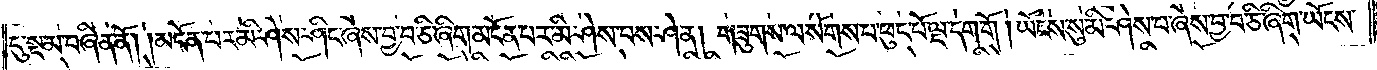དུ་སྔ་མ་བཞིན་ནོ། །མངོན་པར་མི་ཤེས་ཤིང་ཞེས་བྱ་བ་ཅི་ཞིག་མངོན་པར་མི་ཤེས་པས་ཤེ་ན། གཟུགས་ལ་སོགས་པ་ཕུང་པོ་ལྔ་དག་གོ །ཡོངས་སུ་མི་ཤེས་པ་ཞེས་བྱ་བ་ཅི་ཞིག་ཡོངས་
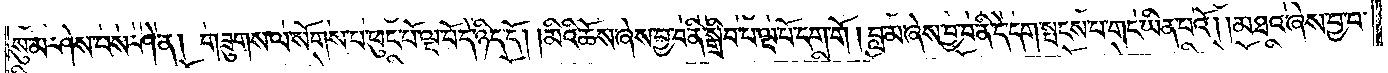སུ་མ་ཤེས་པས་ཤེ་ན། གཟུགས་ལ་སོགས་པ་ཕུང་པོ་ལྔ་པོ་དེ་ཉིད་དོ། །མིའི་ཆོས་ཞེས་བྱ་བ་ནི་སྒྲིབ་པ་ལྔ་པོ་དག་གོ །བླ་མ་ཞེས་བྱ་བ་ནི་དེ་དག་སྤངས་པ་གང་ཡིན་པའོ། །མཐའ་ཞེས་བྱ་བ་
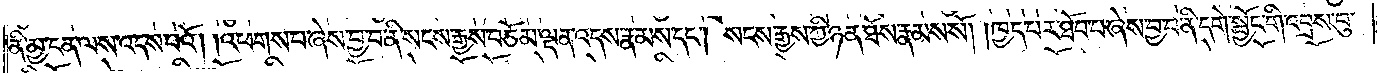ནི་མྱ་ངན་ལས་འདས་པའོ། །འཕགས་པ་ཞེས་བྱ་བ་ནི་སངས་རྒྱས་བཅོམ་ལྡན་འདས་རྣམས་དང༌། སངས་རྒྱས་ཀྱི་ཉན་ཐོས་རྣམས་སོ། །ཁྱད་པར་ཐོབ་པ་ཞེས་བྱ་བ་ནི་དགེ་སྦྱོང་གི་འབྲས་བུ་
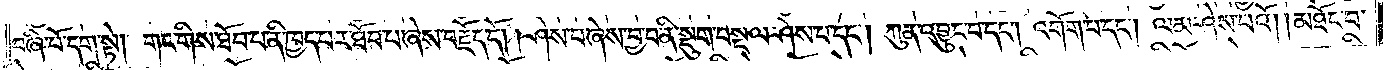བཞི་པོ་དག་སྟེ། གང་གིས་ཐོབ་པ་ནི་ཁྱད་པར་ཐོབ་པ་ཞེས་བརྗོད་དོ། །ཤེས་པ་ཞེས་བྱ་བ་ནི་སྡུག་བསྔལ་ཤེས་པ་དང༌། ཀུན་འབྱུང་བ་དང༌། འགོག་པ་དང༌། ལམ་ཤེས་པའོ། །མཐོང་བ་
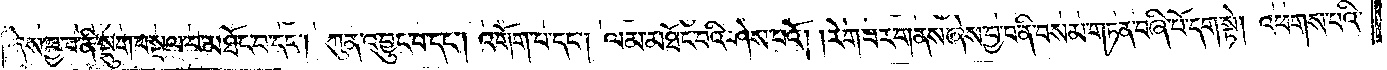ཞེས་བྱ་བ་ནི་སྡུག་བསྔལ་བ་མཐོང་བ་དང༌། ཀུན་འབྱུང་བ་དང༌། འགོག་པ་དང༌། ལམ་མཐོང་བའི་ཤེས་པའོ། །རེག་པར་གནས་ཞེས་བྱ་བ་ནི་བསམ་གཏན་བཞི་པོ་དག་སྟེ། འཕགས་པའི་
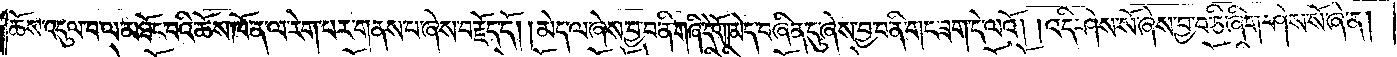ཆོས་འདུལ་བ་ལ་མཐོང་བའི་ཆོས་ཁོ་ན་ལ་རེག་པར་གནས་པ་ཞེས་བརྗོད་དོ། །མེད་ལ་ཞེས་བྱ་བ་ནི་གཞི་དེའོ། །མེད་བཞིན་དུ་ཞེས་བྱ་བ་ནི་གང་ཟག་དེ་ལའོ། །འདི་ཤེས་སོ་ཞེས་བྱ་བ་ཅི་ཞིག་ཤེས་སོ་ཞེ་ན།
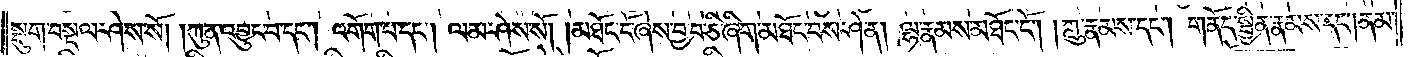སྡུག་བསྔལ་ཤེས་སོ། །ཀུན་འབྱུང་བ་དང༌། འགོག་པ་དང༌། ལམ་ཤེས་སོ། །མཐོང་ངོ་ཞེས་བྱ་བ་ཅི་ཞིག་མཐོང་བས་ཤེ་ན། ལྷ་རྣམས་མཐོང་ངོ༌། །ཀླུ་རྣམས་དང༌། གནོད་སྦྱིན་རྣམས་དང༌། ནམ་
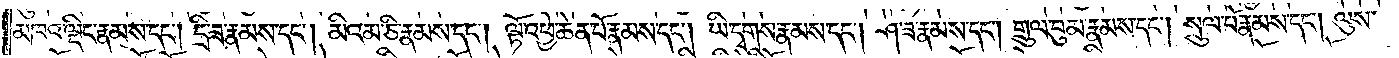མཁའ་ལྡིང་རྣམས་དང༌། དྲི་ཟ་རྣམས་དང༌། མིའམ་ཅི་རྣམས་དང༌། ལྟོ་འཕྱེ་ཆེན་པོ་རྣམས་དང༌། ཡི་དྭགས་རྣམས་དང༌། ཤ་ཟ་རྣམས་དང༌། གྲུལ་བུམ་རྣམས་དང༌། སྲུལ་པོ་རྣམས་དང༌། ལུས་
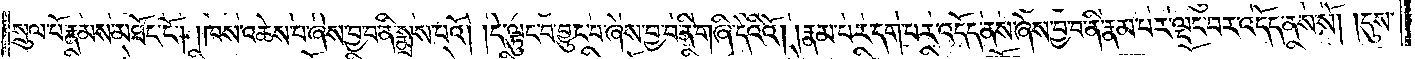སྲུལ་པོ་རྣམས་མཐོང་ངོ༌། །ཁས་འཆེས་པ་ཞེས་བྱ་བ་ནི་སྨྲས་པའོ། །དེ་ལྟུང་བ་བྱུང་བ་ཞེས་བྱ་བ་ནི་གཞི་དེའི་འོ། །རྣམ་པར་དག་པར་འདོད་ནས་ཞེས་བྱ་བ་ནི་རྣམ་པར་ལྡང་བར་འདོད་ནས་སོ། །དུས་
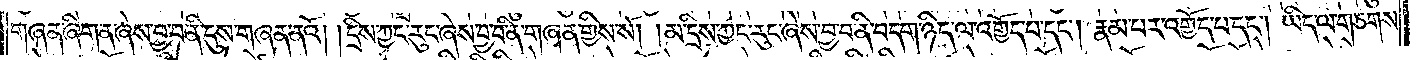གཞན་ཞིག་ན་ཞེས་བྱ་བ་ནི་དུས་གཞན་ནའོ། །དྲིས་ཀྱང་རུང་ཞེས་བྱ་བ་ནི་གཞན་གྱིས་སོ། །མ་དྲིས་ཀྱང་རུང་ཞེས་བྱ་བ་ནི་བདག་ཉིད་ལ་འགྱོད་པ་དང༌། རྣམ་པར་འགྱོད་པ་དང༌། ཡིད་ལ་གཅགས་
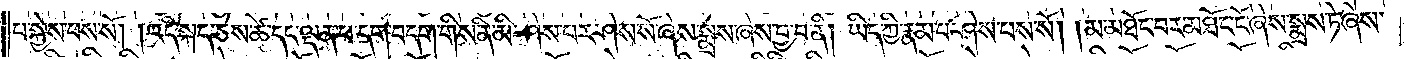པ་སྐྱེས་པས་སོ། །འདི་སྐད་ཅེས་ཚེ་དང་ལྡན་པ་དག་བདག་གིས་ནི་མི་ཤེས་པར་ཤེས་སོ་ཞེས་སྨྲས་ཞེས་བྱ་བ་ནི། ཡིད་ཀྱི་རྣམ་པ་ཤེས་པས་སོ། །མ་མཐོང་བར་མཐོང་ངོ་ཞེས་སྨྲས་ཏེ་ཞེས་
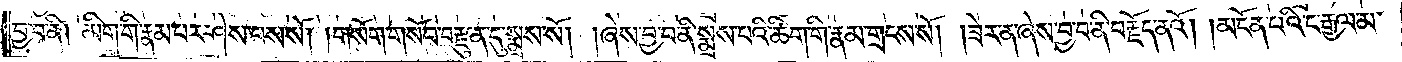བྱ་བ་ནི། མིག་གི་རྣམ་པར་ཤེས་པས་སོ། །གསོག་གསོབ་བརྫུན་དུ་སྨྲས་སོ། །ཞེས་བྱ་བ་ནི་སྨྲས་པའི་ཚིག་གི་རྣམ་གྲངས་སོ། །ཟེར་ན་ཞེས་བྱ་བ་ནི་བརྗོད་ནའོ། །མངོན་པའི་ང་རྒྱལ་མ་
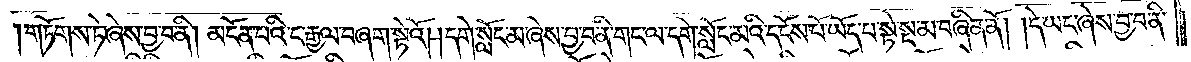།གཏོགས་ཏེ་ཞེས་བྱ་བ་ནི། མངོན་པའི་ང་རྒྱལ་བཞག་སྟེའོ། །དགེ་སློང་མ་ཞེས་བྱ་བ་ནི་གང་ལ་དགེ་སློང་མའི་དངོས་པོ་ཡོད་པ་སྟེ་སྔ་མ་བཞིན་ནོ། །དེ་ཡང་ཞེས་བྱ་བ་ནི་
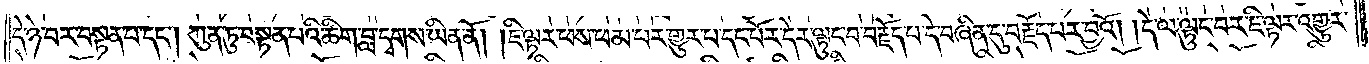དེ་ཉེ་བར་བསྟན་པ་དང༌། ཀུན་ཏུ་བསྟན་པའི་ཚིག་བླ་དྭགས་ཡིན་ནོ། །ཇི་ལྟར་ཕས་ཕམ་པར་གྱུར་པ་དང་པོར་དེར་ལྟུང་བ་བརྗོད་པ་དེ་བཞིན་དུ་བརྗོད་པར་བྱའོ། །དེ་ལ་ལྟུང་བར་ཇི་ལྟར་འགྱུར་
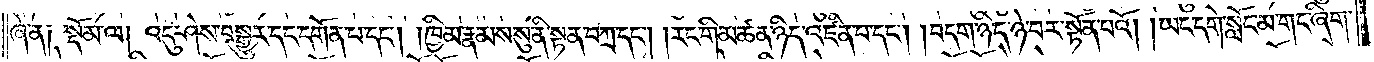ཞེ་ན༑ སྡོམ་ལ། འདུ་ཤེས་བསྒྱུར་དང་དགོན་པ་དང༌། །ཁྱིམ་རྣམས་སུ་ནི་སྟན་བཀྲ་དང༌། །རང་གི་མཚན་ཉིད་འཛིན་པ་དང༌། །བདག་ཉིད་ཉེ་བར་སྟོན་པའོ། །ཡང་དགེ་སློང་མ་གང་ཞིག་
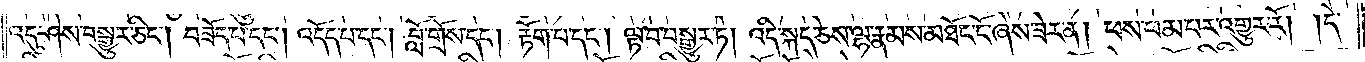འདུ་ཤེས་བསྒྱུར་ཅིང༌། བཟོད་པ་དང༌། འདོད་པ་དང༌། བློ་གྲོས་དེང༌། རྟོག་པ་དང༌། ལྟ་བ་བསྒྱུར་ཏེ། འདི་སྐད་ཅེས་ལྷ་རྣམས་མཐོང་ངོ་ཞེས་ཟེར་ན། ཕས་ཕམ་པར་འགྱུར་རོ། །དེ་
